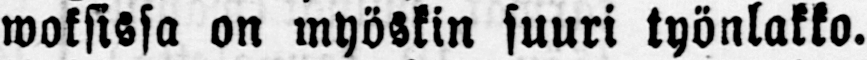woksissa on myöskin suuri työnlakko.
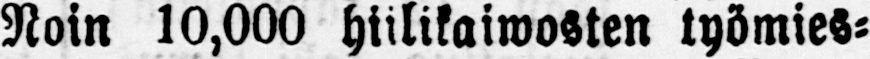Noin 10,000 hiilikaiwosten työmies-
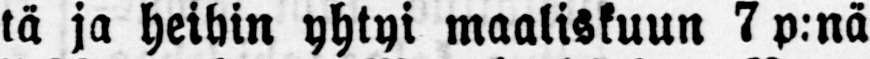tä ja heihin yhtyi maaliskuun 7p.nä
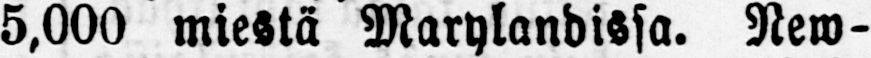5,000 miestä Marylandissa. New-
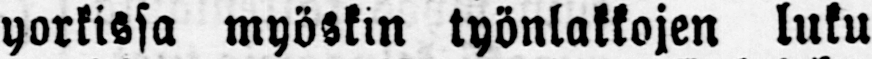yorkissa myöskin työnlakkojen luku
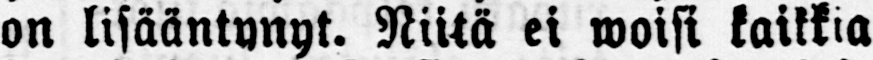on lisääntynyt. Niitä ei woisi kaikkia
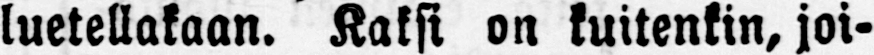luetellakaan. Kaksi on kuitenkin, joi-
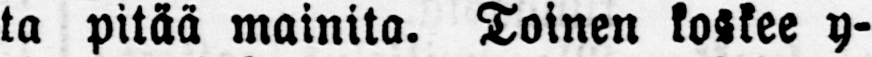ta pitää mainita. Toinen koskee y-
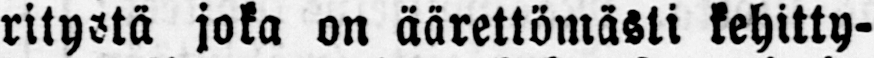ritystä joka on äärettömästi kehitty-
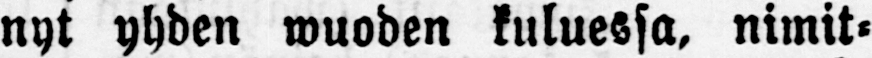nyt yhden wuoden kuluessa, nimit-
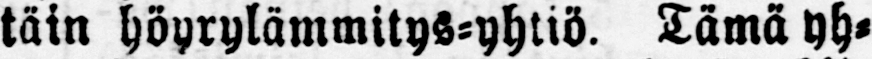täin höyrylämmitys-yhtiö. Tämä yh-
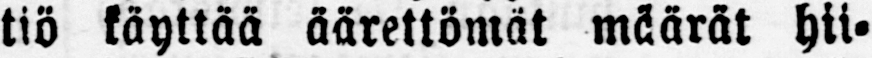tiö käyttää äärettömät määrät hii-
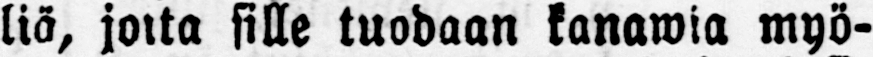liä, jolta sille tuodaan kanawia myö-
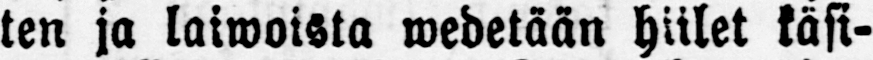ten ja laiwoista wedetään hiilet käsi-
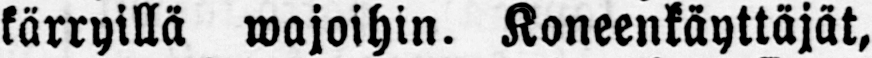kärryillä wajoihin. Koneenkäyttäjät,
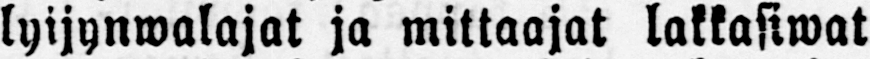lyijynwalajat ja mittaajat lakkasiwat
